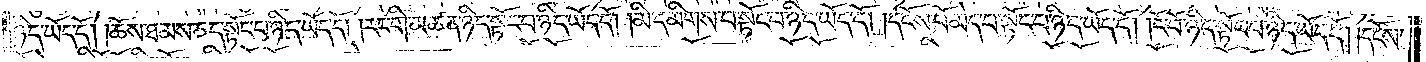ཉིད་ཡོད་དོ། །ཆོས་ཐམས་ཅད་སྟོང་པ་ཉིད་ཡོད་དོ། །རང་གི་མཚན་ཉིད་སྟོང་པ་ཉིད་ཡོད་དོ། །མི་དམིགས་པ་སྟོང་པ་ཉིད་ཡོད་དོ། །དངོས་པོ་མེད་པ་སྟོང་པ་ཉིད་ཡོད་དོ། །ངོ་བོ་ཉིད་སྟོང་པ་ཉིད་ཡོད་དོ། །དངོས་
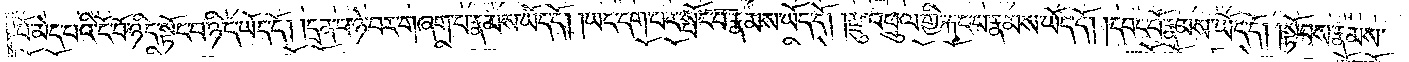པོ་མེད་པའི་ངོ་བོ་ཉིད་སྟོང་པ་ཉིད་ཡོད་དོ། །དྲན་པ་ཉེ་བར་གཞག་པ་རྣམས་ཡོད་དོ། །ཡང་དག་པར་སྤོང་བ་རྣམས་ཡོད་དོ། །རྫུ་འཕྲུལ་གྱི་རྐང་པ་རྣམས་ཡོད་དོ། །དབང་པོ་རྣམས་ཡོད་དོ། །སྟོབས་རྣམས་
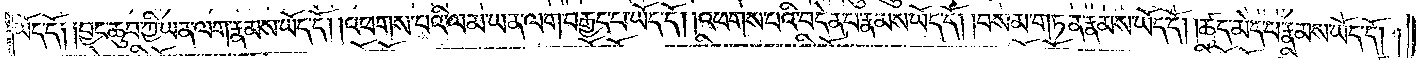ཡོད་དོ༑ ༑བྱང་ཆུབ་ཀྱི་ཡན་ལག་རྣམས་ཡོད་དོ། །འཕགས་པའི་ལམ་ཡན་ལག་བརྒྱད་པ་ཡོད་དོ། །འཕགས་པའི་བདེན་པ་རྣམས་ཡོད་དོ། །བསམ་གཏན་རྣམས་ཡོད་དོ། །ཚད་མེད་པ་རྣམས་ཡོད་དོ། །
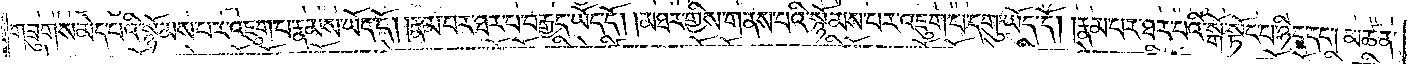གཟུགས་མེད་པའི་སྙོམས་པར་འཇུག་པ་རྣམས་ཡོད་དོ། །རྣམ་པར་ཐར་པ་བརྒྱད་ཡོད་དོ། །མཐར་གྱིས་གནས་པའི་སྙོམས་པར་འཇུག་པ་དགུ་ཡོད་དོ། །རྣམ་པར་ཐར་པའི་སྒོ་སྟོང་པ་ཉིད་དང༌། མཚན་
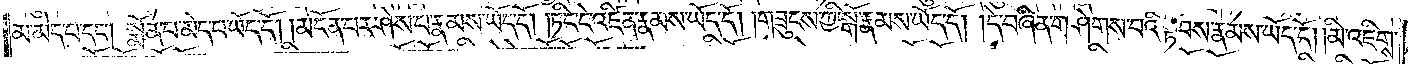མ་མེད་པ་དང༌། སྨོན་པ་མེད་པ་ཡོད་དོ། །མངོན་པར་ཤེས་པ་རྣམས་ཡོད་དོ། །ཏིང་ངེ་འཛིན་རྣམས་ཡོད་དོ། །གཟུངས་ཀྱི་སྒོ་རྣམས་ཡོད་དོ། །དེ་བཞིན་གཤེགས་པའི་སྟོབས་རྣམས་ཡོད་དོ། །མི་འཇིགས་
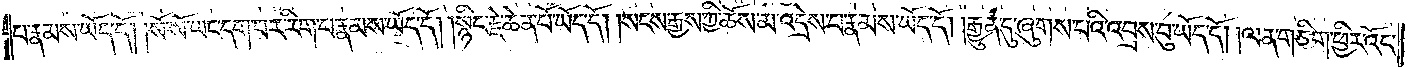པ་རྣམས་ཡོད་དོ། །སོ་སོ་ཡང་དག་པར་རིག་པ་རྣམས་ཡོད་དོ། །སྙིང་རྗེ་ཆེན་པོ་ཡོད་དོ། །སངས་རྒྱས་ཀྱི་ཆོས་མ་འདྲེས་པ་རྣམས་ཡོད་དོ། །རྒྱུན་དུ་ཞུགས་པའི་འབྲས་བུ་ཡོད་དོ། །ལན་གཅིག་ཕྱིར་འོང་
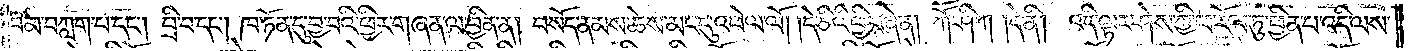བམ་བཀླག་པ་དང༌། བྲི་བ་དང༌། ཁ་ཏོན་དུ་བྱ་བའི་ཕྱིར་གཞན་ལ་བྱིན་ན། བསོད་ནམས་ཆེས་མང་དུ་འཕེལ་ལོ། །དེ་ཅིའི་ཕྱིར་ཞེ་ན། ཀཽ་ཤི་ཀ །དེ་ནི། འདི་ལྟར་ཤེས་རབ་ཀྱི་ཕ་རོལ་ཏུ་ཕྱིན་པ་འདི་ལས་
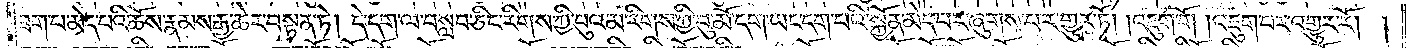ཟག་པ་མེད་པའི་ཆོས་རྣམས་རྒྱ་ཆེར་བསྟན་ཏེ། དེ་དག་ལ་བསླབ་ཅིང་རིགས་ཀྱི་བུའམ་རིགས་ཀྱི་བུ་མོ་དག་ཡང་དག་པའི་སྐྱོན་མེད་པར་ཞུགས་པར་གྱུར་ཏོ། འཇུག་གོ །འཇུག་པར་འགྱུར་རོ། །
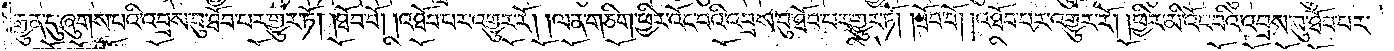རྒྱུན་དུ་ཞུགས་པའི་འབྲས་བུ་ཐོབ་པར་གྱུར་ཏོ། །ཐོབ་བོ། །འཐོབ་པར་འགྱུར་རོ། །ལན་གཅིག་ཕྱིར་འོང་བའི་འབྲས་བུ་ཐོབ་པར་གྱུར་ཏོ། །ཐོབ་བོ། །འཐོབ་པར་འགྱུར་རོ། །ཕྱིར་མི་འོང་བའི་འབྲས་བུ་ཐོབ་པར་
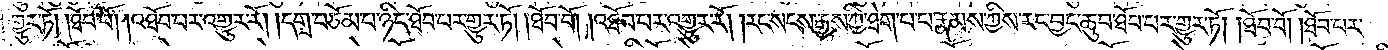གྱུར་ཏོ། །ཐོབ་བོ། །འཐོབ་པར་འགྱུར་རོ། །དགྲ་བཅོམ་པ་ཉིད་ཐོབ་པར་གྱུར་ཏོ། །ཐོབ་བོ། །འཐོབ་པར་འགྱུར་རོ། །རང་སངས་རྒྱས་ཀྱི་ཐེག་པ་པ་རྣམས་ཀྱིས་རང་བྱང་ཆུབ་ཐོབ་པར་གྱུར་ཏོ། །ཐོབ་བོ། །ཐོབ་པར་
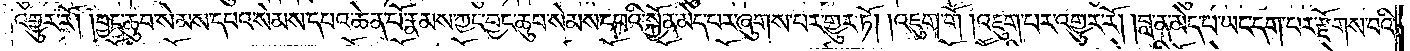འགྱུར་རོ། །བྱང་ཆུབ་སེམས་དཔའ་སེམས་དཔའ་ཆེན་པོ་རྣམས་ཀྱང་བྱང་ཆུབ་སེམས་དཔའ་སྐྱོན་མེད་པར་ཞུགས་པར་གྱུར་ཏོ། །འཇུག་གོ །འཇུག་པར་འགྱུར་རོ། །བླ་ན་མེད་པ་ཡང་དག་པར་རྫོགས་པའི་
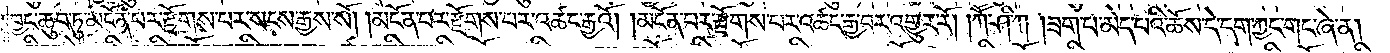བྱང་ཆུབ་ཏུ་མངོན་པར་རྫོགས་པར་སངས་རྒྱས་སོ། །མངོན་པར་རྫོགས་པར་འཚང་རྒྱའོ། །མངོན་པར་རྫོགས་པར་འཚང་རྒྱ་བར་འགྱུར་རོ། །ཀཽ་ཤི་ཀ །ཟག་པ་མེད་པའི་ཆོས་དེ་དག་ཀྱང་གང་ཞེ་ན།
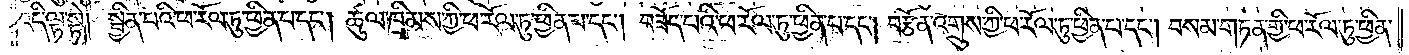འདི་ལྟ་སྟེ། སྦྱིན་པའི་ཕ་རོལ་ཏུ་ཕྱིན་པ་དང༌། ཚུལ་ཁྲིམས་ཀྱི་ཕ་རོལ་ཏུ་ཕྱིན་པ་དང༌། བཟོད་པའི་ཕ་རོལ་ཏུ་ཕྱིན་པ་དང༌། བརྩོན་འགྲུས་ཀྱི་ཕ་རོལ་ཏུ་ཕྱིན་པ་དང༌། བསམ་གཏན་གྱི་ཕ་རོལ་ཏུ་ཕྱིན་
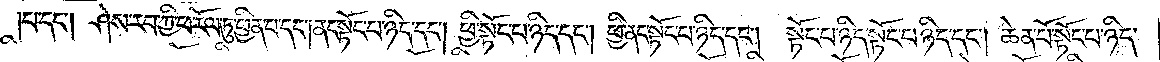པ་དང༌། ཤེས་རབ་ཀྱི་ཕ་རོལ་ཏུ་ཕྱིན་པ་དང༌། ནང་སྟོང་པ་ཉིད་དང༌། ཕྱི་སྟོང་པ་ཉིད་དང༌། ཕྱི་ནང་སྟོང་པ་ཉིད་དང༌། སྟོང་པ་ཉིད་སྟོང་པ་ཉིད་དང༌། ཆེན་པོ་སྟོང་པ་ཉིད་
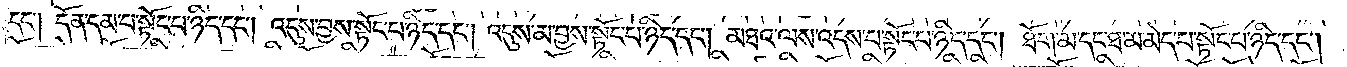དང༌། དོན་དམ་པ་སྟོང་པ་ཉིད་དང༌། འདུས་བྱས་སྟོང་པ་ཉིད་དང༌། འདུས་མ་བྱས་སྟོང་པ་ཉིད་དང༌། མཐའ་ལས་འདས་པ་སྟོང་པ་ཉིད་དང༌། ཐོག་མ་དང་ཐ་མ་མེད་པ་སྟོང་པ་ཉིད་དང༌།
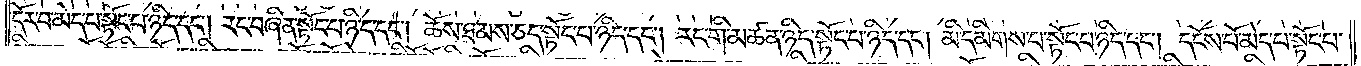དོར་བ་མེད་པ་སྟོང་པ་ཉིད་དང༌། རང་བཞིན་སྟོང་པ་ཉིད་དང༌། ཆོས་ཐམས་ཅད་སྟོང་པ་ཉིད་དང༌། རང་གི་མཚན་ཉིད་སྟོང་པ་ཉིད་དང༌། མི་དམིགས་པ་སྟོང་པ་ཉིད་དང༌། དངོས་པོ་མེད་པ་སྟོང་པ་
